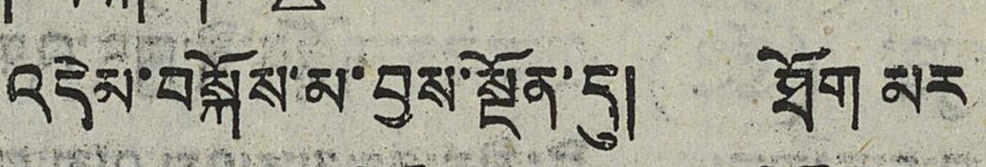འདེམ་བསྐོས་མ་བྱས་སྔོན་དུ། ཐོག མར
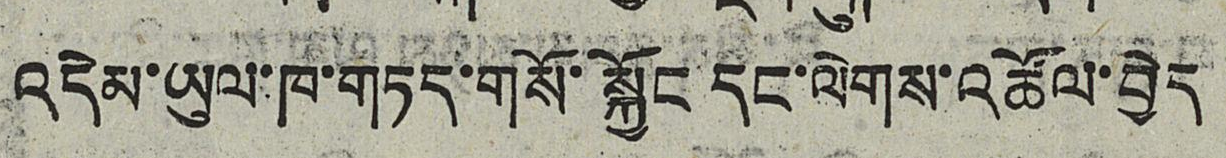འདེམ་ཡུལ་ཁ་གཏད་གསོ་སྐྱོང་དང་ལེགས་འཚོལ་བྱེད
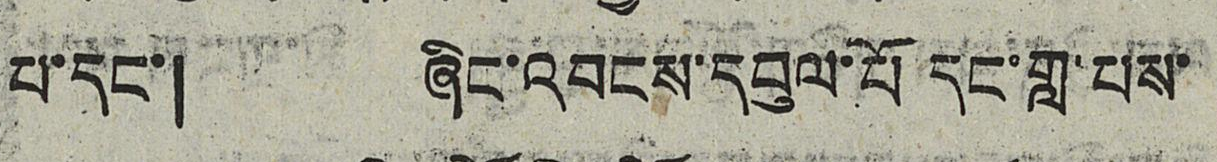པ་དང་། ཞིང་འབངས་དབུལ་པོ་དང་གླ་པས་
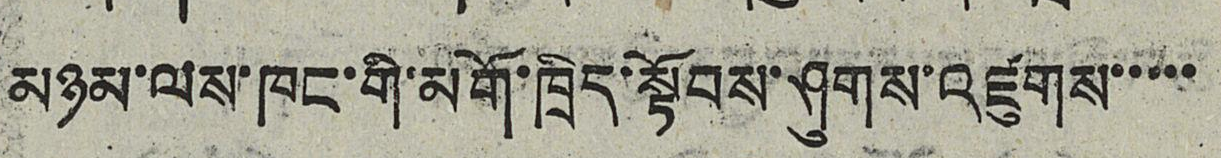མཉམ་ལས་ཁང་གི་མགོ་ཁྲིད་སྟོབས་ཤུགས་འཛུགས་་་་་
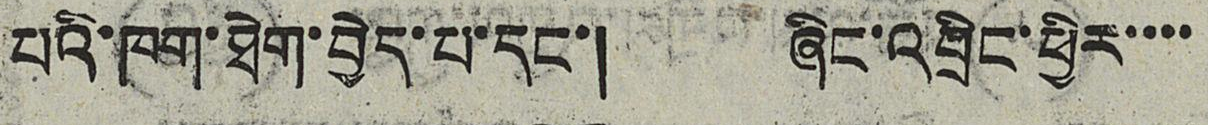པའི་ཁག་ཐེག་བྱེད་པ་དང་། ཞིང་འབྲིང་ཕྱིར་་་་
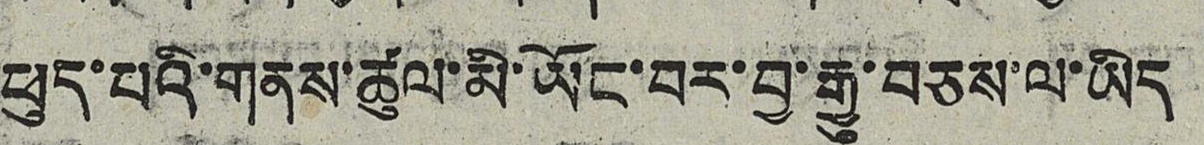ཕུད་པའི་གནས་ཚུལ་མི་ཡོང་བར་བྱ་རྒྱུ་བཅས་ལ་ཡིད
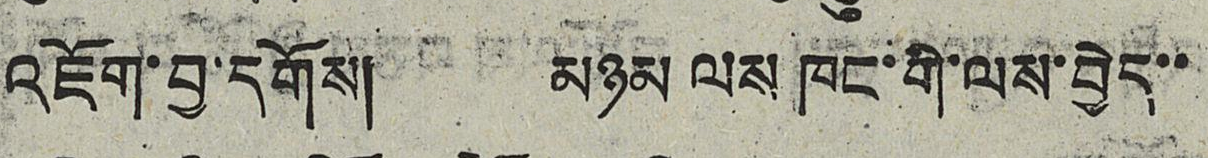འཇོག་བྱ་དགོས། མཉམ ལས ཁང་གི་ལས་བྱེད་་
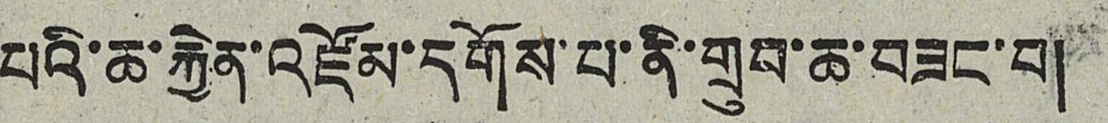པའི་ཆ་རྐྱེན་འཛོམ་དགོས་པ་ནི་གྲུབ་ཆ་བཟང་བ།
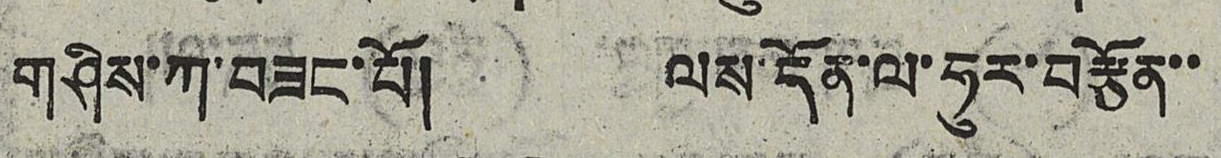གཤིས་ཀ་བཟང་པོ། ལས་དོན་ལ་ཧུར་བརྩོན་་
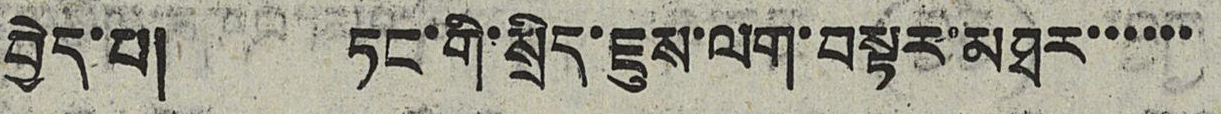བྱེད་པ། ཏང་གི་སྲིད་ཇུས་ལག་བསྟར་མཐེར་་་་་་
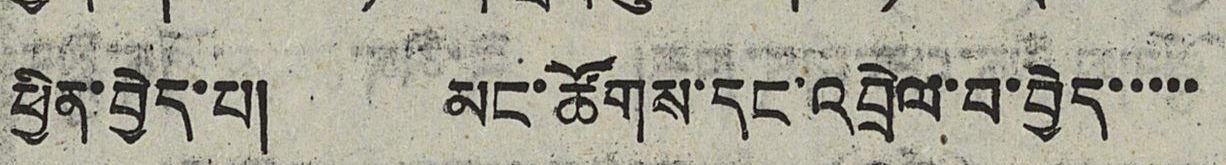ཕྱིན་བྱེད་པ། མང་ཚོགས་དང་འབྲེལ་བ་བྱེད་་་་་
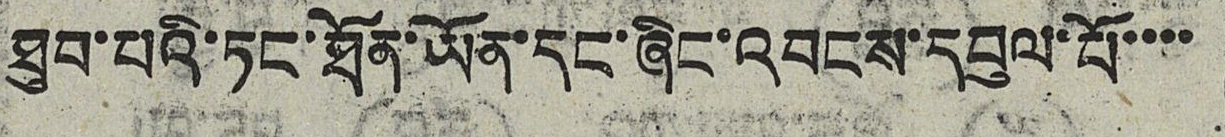ཐུབ་པའི་ཏང་ཐོན་ཡོན་དང་ཞིང་འབངས་དབུལ་པོ་་་་
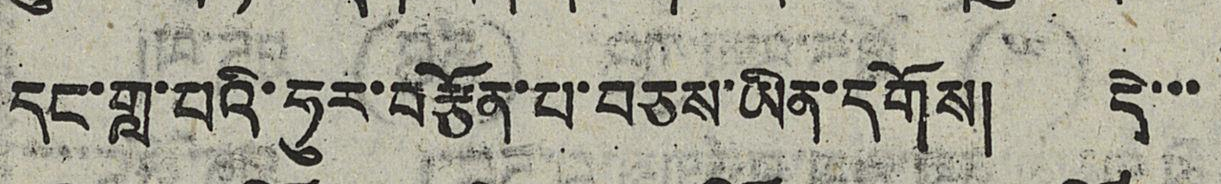དང་གླ་བའི་ཧུར་བརྩོན་པ་བཅས་ཡིན་དགོས། དེ་་་
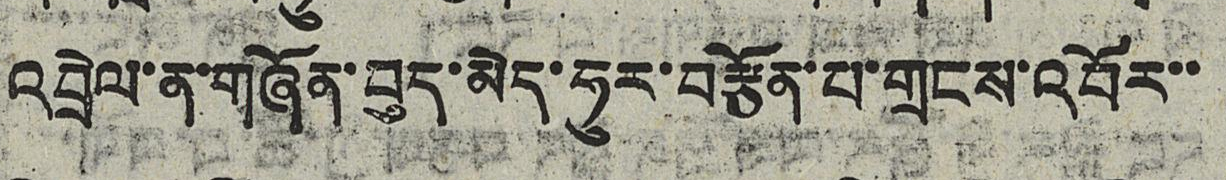འབྲེལ་ན་གཞོན་བྱད་མེད་ཧུར་བརྩོན་པ་གྲངས་འབོར་་
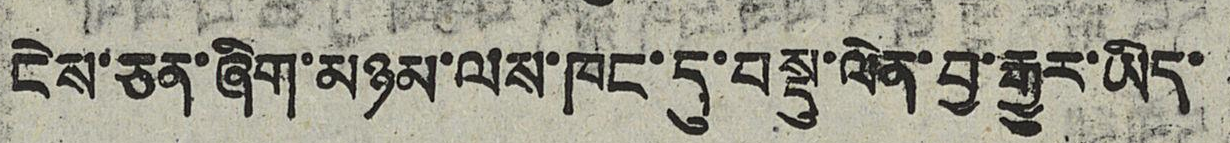ངེས་ཅན་ཞིག་མཉམ་ལས་ཁང་དུ་བསྡུ་ལེན་བྱ་རྒྱུར་ཡིད་
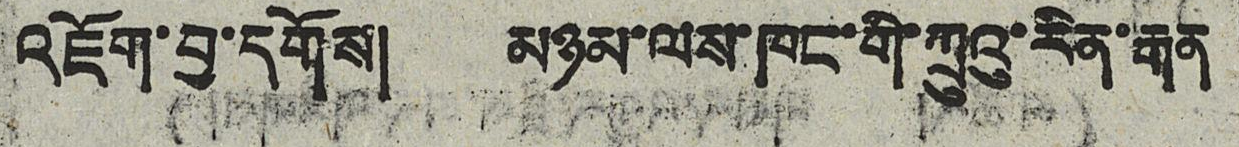འཇོག་བྱ་དགོས། མཉམ་ལས་ཁང་གི་ཀྲུའུ་རིན་རྒན་
